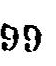99
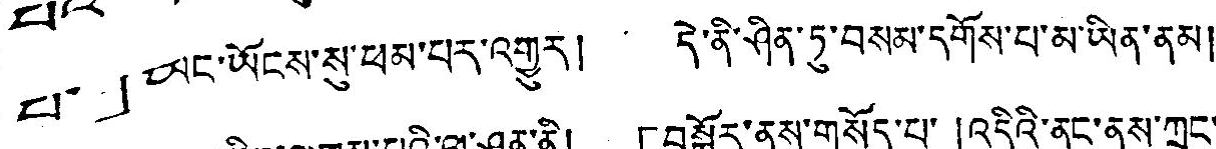པ་」ཡང་ཡོངས་སུ་ཕམ་པར་འགྱུར། དེ་ནི་ཤིན་ཏུ་བསམ་དགོས་པ་མ་ཡིན་ནམ།
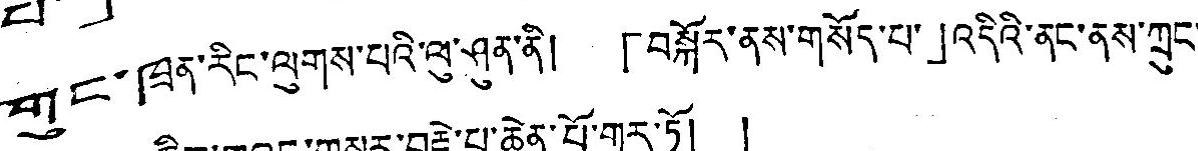གུང་ཁན་རིང་ལུགས་པའི་ལུ་ཤུན་ནི། 「བསྐོར་ནས་གསོད་པ་」འདིའི་ནང་ནས་ཀྲུང་
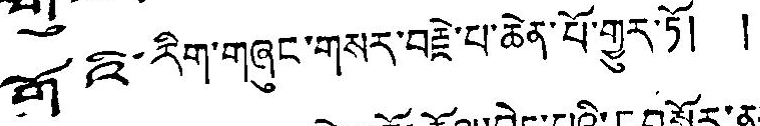གོའི་རིག་གཞུང་གསར་བརྗེ་པ་ཆེན་པོ་གྱུར་ཏོ། །
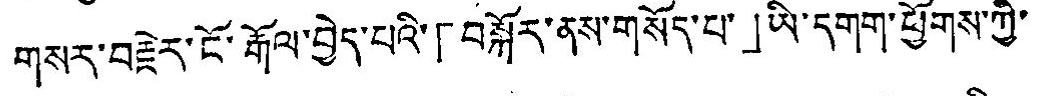གསར་བརྗེར་ངོ་རྒོལ་བྱེད་པའི་「བསྐོར་ནས་གསོད་པ་」ཡི་དགག་ཕྱོགས་ཀྱི་
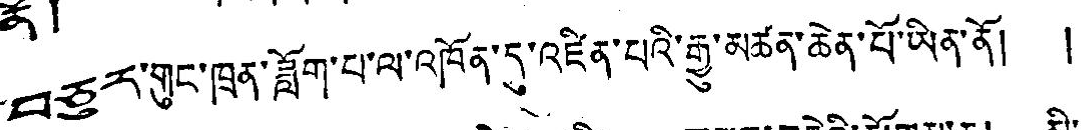བཅུར་གུང་ཁྲན་ཟློག་པ་ལ་འཁོན་དུ་འཛིན་པའི་རྒྱུ་མཚན་ཆེན་པོ་ཡིན་ནོ། །
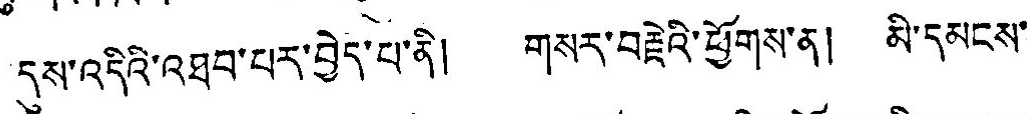དུས་འདིའི་འཐབ་པར་བྱེད་པ་ནི། གསར་བརྗེའི་ཕྱོགས་ན། མི་དམངས་
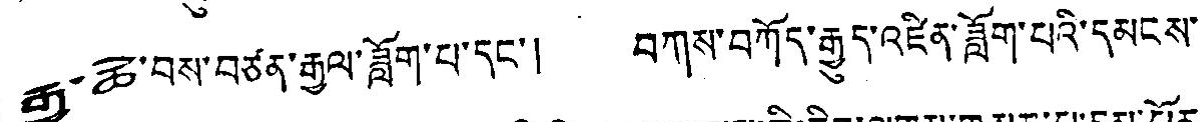རྒྱ་ཆེ་བས་བཙན་རྒྱལ་ཟློག་པ་དང་། བཀས་བཀོད་རྒྱུད་འཛིན་ཟློག་པའི་དམངས་
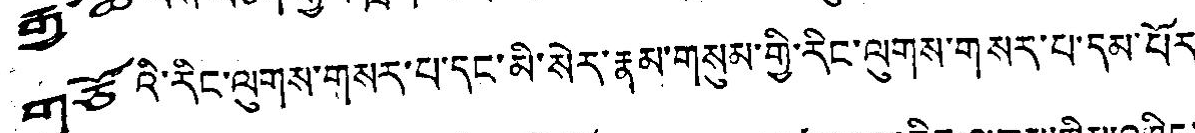གཅོའི་རིང་ལུགས་གསར་པ་དང་མི་སེར་རྣམ་གསུམ་གྱི་རིང་ལུགས་གསར་པ་དམ་པོར
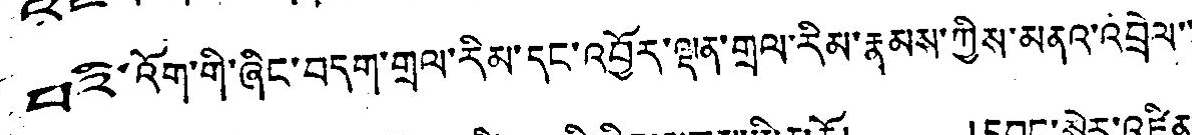པའི་འོག་གི་ཞིང་བདག་གྲལ་རིམ་དང་འབྱོར་ལྡན་གྲལ་རིམ་རྣམས་ཀྱིས་མནའ་འབྲེལ་་
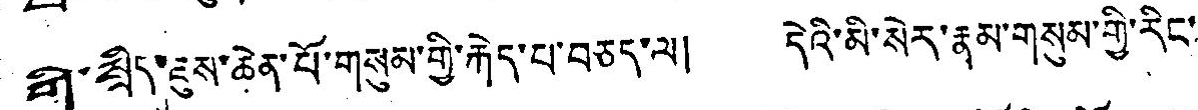གི་སྲིད་ཇུས་ཆེན་པོ་གསུམ་གྱི་རྐེད་པ་བཅད་ལ། དེའི་མི་སེར་རྣམ་གསུམ་གྱི་རིང་
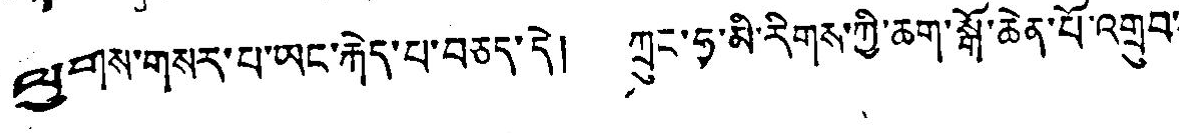ལུགས་གསར་པ་ཡང་རྐེད་པ་བཅད་དེ། ཀྲུང་ཧྭ་མི་རིགས་ཀྱི་ཆག་སྒོ་ཆེན་པོ་འགྲུབ་
